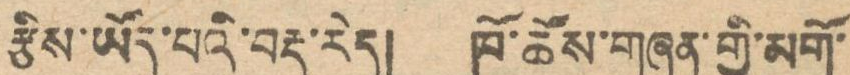རྩིས་ཡོད་པའི་བརྡ་རེད། ཁོ་ཚོས་གཞན་གྱི་མགོ་
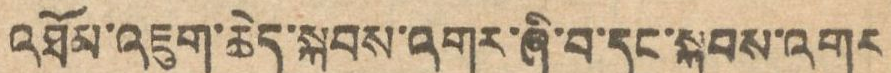འཐོན་འཇུག་ཆེད་སྐབས་འགར་ཞི་བ་དང་སྐབས་འགར
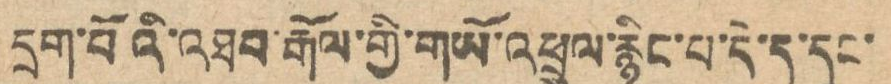དྲག་པོའི་འཐབ་རྒོལ་གྱི་གཡོ་འཕྲུག་རྙིང་པ་དེ་ད་དུང་
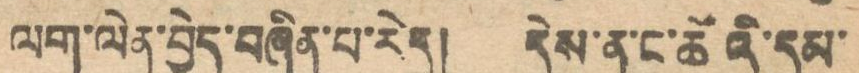ལག་ལེན་བྱེད་བཞིན་པ་རེད། དེས་ན་ང་ཚོའི་དམ་
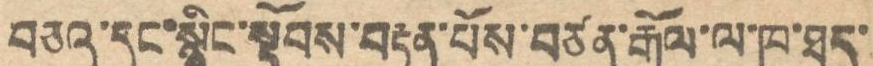བཅའ་དང་སྙིང་སྟོབས་བརྟན་པོས་བཙན་རྒོལ་ལ་ཁ་ཐད་
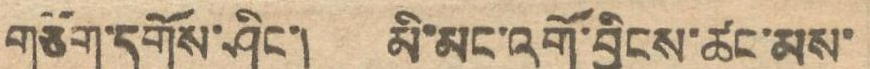གཅོག་དགོས་ཤིང་། མི་མང་འགོ་བྱིངས་ཚང་མས་
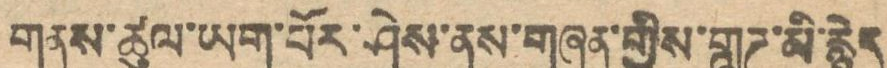གནས་ཚུལ་ཡག་པོར་ཤེས་ནས་གཞན་གྱིས་གླཊ་མི་རྙེད
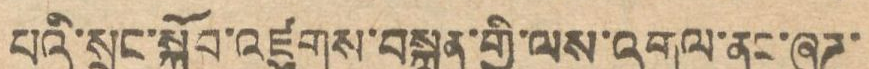པའི་སྲུང་སྐྱོབ་འཛུགས་བསྐུན་གྱི་ལས་འགུལ་ནང་ཞུཊ་
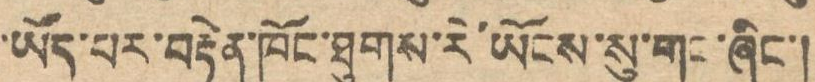་ཡོད་པར་བརྟེན་ཁོང་ཐུགས་རེ་ཡོངས་སུ་གང་ཞིང་།
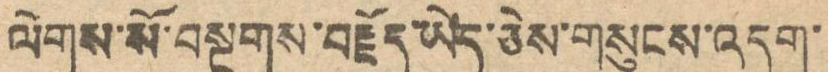ལེགས་སོ་བསྔགས་བརྗོད་ཡེད་ཅེས་གསུངས་འདུག་
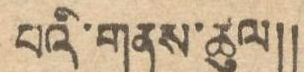པའི་གནས་ཚུལ།།
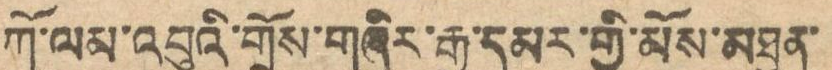ཀོ་ལམ་འབུའི་གྲོས་གཞིར་རྒྱ་དམར་གྱི་མོས་མཐུན་
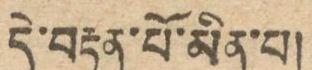དེ་བརྟན་པོ་མིན་པ།
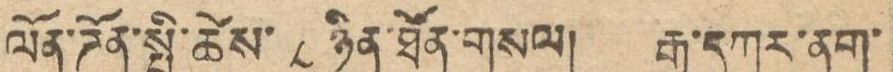ལོན་ཌོན་སྤྱི་ཚེས་ ༨ ཉིན་ཐོན་གསལ། རྒྱ་དཀར་ནག་
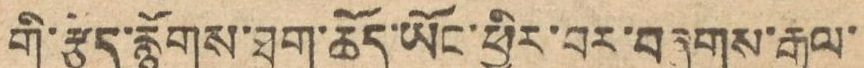གི་རྩོད་རྙོགས་ཐག་ཆོད་ཡོང་ཕྱིར་བར་བཞུགས་རྒྱལ་
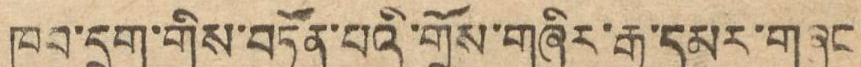ཁབ་དྲུག་གིས་བཏོན་པའི་གྲོས་གཞིར་རྒྱ་དམར་གཞུང
